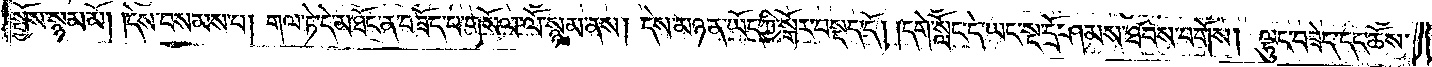སྤྱོས་སྙམ་མོ། །དེས་བསམས་པ། གལ་ཏེ་དེ་མཐོང་ན་བཟོད་པ་གསོལ་ལོ་སྙམ་ནས། དེས་མཉན་ཡོད་ཀྱི་སྒོར་བསྡད་དོ། །དགེ་སློང་དེ་ཡང་སྔ་དྲོ་ཤམས་ཐབས་བགོས། ལྷུང་བཟེད་དང་ཆོས་
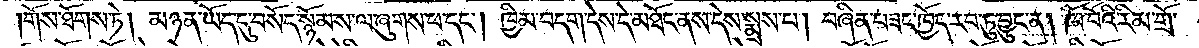གོས་ཐོགས་ཏེ། མཉན་ཡོད་དུ་བསོད་སྙོམས་ལ་ཞུགས་པ་དང༌། ཁྱིམ་བདག་དེས་དེ་མཐོང་ནས་དེས་སྨྲས་པ། བཞིན་བཟང་ཁྱོད་རབ་ཏུ་བྱུང་ན། ཁོ་བོའི་རིམ་གྲོ་
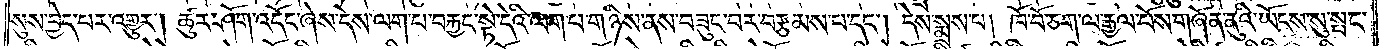སུས་བྱེད་པར་འགྱུར། ཚུར་ཤོག་འདོང་ཞེས་དེས་ལག་པ་བརྐྱང་སྟེ་དེའི་ལག་པ་གཉིས་ནས་བཟུང་བར་བརྩམས་པ་དང༌། དེས་སྨྲས་པ། ཁོ་བོ་ཅག་ལ་རྒྱལ་པོས་གཞོན་ནུའི་ཡོངས་སུ་སྤང་
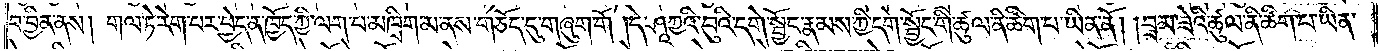བ་བྱིན་ནས། གལ་ཏེ་རེག་པར་བྱེད་ན་ཁྱོད་ཀྱི་ལག་པ་མཁྲིག་མ་ནས་གཅོད་དུ་གཞུག་གོ །དེ་ཤཱཀྱའི་བུའི་དགེ་སྦྱོང་རྣམས་ཀྱི་དགེ་སྦྱོང་གི་ཚུལ་ནི་ཚིག་པ་ཡིན་ནོ། །བྲམ་ཟེའི་ཚུལ་ནི་ཚིག་པ་ཡིན་
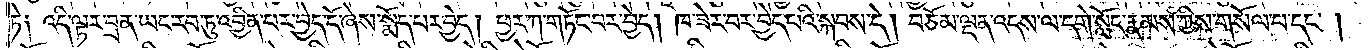ཏེ༑ འདི་ལྟར་བྲན་ཡང་རབ་ཏུ་འབྱིན་པར་བྱེད་དོ་ཞེས་སྨོད་པར་བྱེད། ཕྱར་ཀ་གཏོང་བར་བྱེད། ཁ་ཟེར་བར་བྱེད་པའི་སྐབས་དེ། བཅོམ་ལྡན་འདས་ལ་དགེ་སློང་རྣམས་ཀྱིས་གསོལ་པ་དང༌།
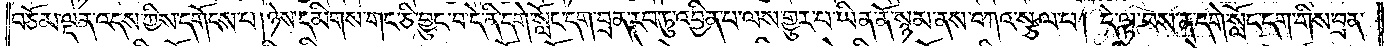བཅོམ་ལྡན་འདས་ཀྱིས་དགོངས་པ་།ཉེས་དམིགས་གང་ཅི་བྱུང་བ་དེ་ནི་དགེ་སློང་དག་བྲན་རབ་ཏུ་འབྱིན་པ་ལས་གྱུར་པ་ཡིན་ནོ་སྙམ་ནས་བཀའ་སྩལ་པ། དེ་ལྟ་བས་ན་དགེ་སློང་དག་གིས་བྲན་
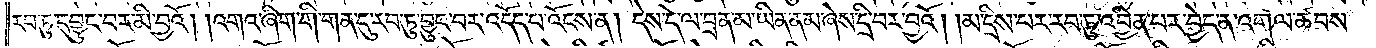རབ་ཏུ་དབྱུང་བར་མི་བྱའོ། །འགའ་ཞིག་གི་གན་དུ་རབ་ཏུ་བྱུང་བར་འདོད་པ་འོངས་ན། དེས་དེ་ལ་བྲན་མ་ཡིན་ནམ་ཞེས་དྲི་བར་བྱའོ། །མ་དྲིས་པར་རབ་ཏུ་འབྱིན་པར་བྱེད་ན་འགལ་ཚབས་
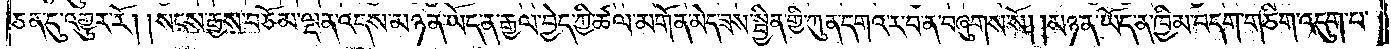ཅན་དུ་འགྱུར་རོ། །སངས་རྒྱས་བཅོམ་ལྡན་འདས་མཉན་ཡོད་ན་རྒྱལ་བྱེད་ཀྱི་ཚལ་མགོན་མེད་ཟས་སྦྱིན་གྱི་ཀུན་དགའ་ར་བ་ན་བཞུགས་སོ། །མཉན་ཡོད་ན་ཁྱིམ་བདག་གཅིག་འདུག་པ་
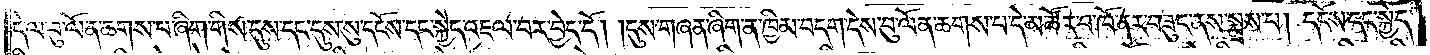དེ་ལ་བུ་ལོན་ཆགས་པ་ཞིག་གིས་དུས་དང་དུས་སུ་དངོས་དང་སྐྱེད་འཇལ་བར་བྱེད་དོ། །དུས་གཞན་ཞིག་ན་ཁྱིམ་བདག་དེས་བུ་ལོན་ཆགས་པ་དེ་མ་ཚོར་བ་ཁོ་ནར་བཟུང་ནས་སྨྲས་པ། དངོས་དང་སྐྱེད་
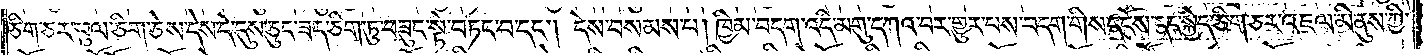ཅིག་ཅར་ཕུལ་ཅིག་ཅེས་དེས་དེ་དུས་ཅུང་ཟད་ཅིག་ཏུ་བཟུང་སྟེ་བཏང་བ་དང༌། དེས་བསམས་པ། ཁྱིམ་བདག་འདི་མགུ་དཀའ་བར་གྱུར་པས་བདག་གིས་དངོས་དང་སྐྱེད་ཅིག་ཅར་འཇལ་མི་ནུས་ཀྱི་
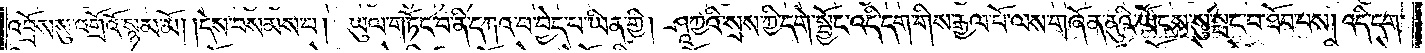འབྲོས་སུ་འགྲོའོ་སྙམ་མོ། །དེས་བསམས་པ། ཡུལ་གཏོང་བ་ནི་དཀའ་བ་བྱེད་པ་ཡིན་གྱི། ཤཱཀྱའི་སྲས་ཀྱི་དགེ་སྦྱོང་འདི་དག་གིས་རྒྱལ་པོ་ལས་གཞོན་ནུའི་ཡོངས་སུ་སྤང་བ་ཐོབ་པས། འདི་དག་
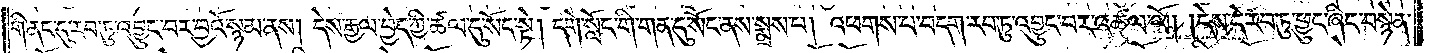གི་ནང་དུ་རབ་ཏུ་འབྱུང་བར་བྱའོ་སྙམ་ནས། དེས་རྒྱལ་བྱེད་ཀྱི་ཚལ་དུ་སོང་སྟེ། དགེ་སློང་གི་གན་དུ་སོང་ནས་སྨྲས་པ། འཕགས་པ་བདག་རབ་ཏུ་འབྱུང་བར་འཚལ་ལོ། །དེས་དེ་རབ་ཏུ་ཕྱུང་ཞིང་བསྙེན་
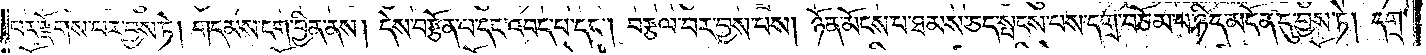པར་རྫོགས་པར་བྱས་ཏེ། གདམས་ངག་བྱིན་ནས། དེས་བརྩོན་པ་དང་འབད་པ་དང༌། བརྩལ་བར་བྱས་པས། ཉོན་མོངས་པ་ཐམས་ཅད་སྤངས་པས་དགྲ་བཅོམ་པ་ཉིད་མངོན་དུ་བྱས་ཏེ། དགྲ་
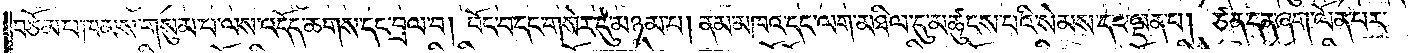བཅོམ་པ་ཁམས་གསུམ་པ་ལས་འདོད་ཆགས་དང་བྲལ་བ། བོང་བ་དང་གསེར་དུ་མཉམ་པ། ནམ་མཁའ་དང་ལག་མཐིལ་དུ་མཚུངས་པའི་སེམས་དང་ལྡན་པ། ཙན་དན་ཞག་ལོན་པར་
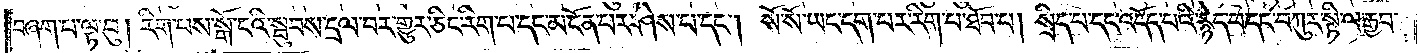བཞག་པ་ལྟ་བུ། རིག་པས་སྒོ་ངའི་སྦུབས་དྲལ་བར་གྱུར་ཅིང་རིག་པ་དང་མངོན་པར་ཤེས་པ་དང༌། སོ་སོ་ཡང་དག་པར་རིག་པ་ཐོབ་པ། སྲིད་པ་དང་འདོད་པའི་རྙེད་པ་དང་བཀུར་སྟི་ལ་རྒྱབ་
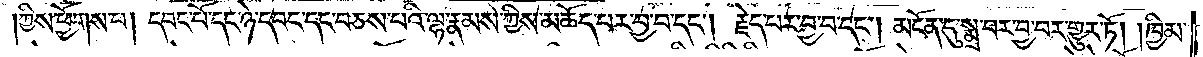ཀྱིས་ཕྱོགས་པ། དབང་པོ་དང་ཉེ་དབང་དང་བཅས་པའི་ལྷ་རྣམས་ཀྱིས་མཆོད་པར་བྱ་བ་དང༌། རྗེད་པར་བྱ་བ་དང༌། མངོན་དུ་སྨྲ་བར་བྱ་བར་གྱུར་ཏོ། །ཁྱིམ་
